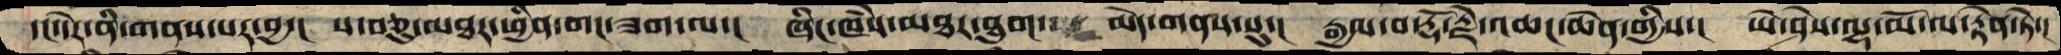དང་དེར་ནི་གནས་པར་བྱ་།  ས་བཅུ་མཐར་ཕྱིན་གང་ཟག་ལ་།  ཞིང་ཁཾས་མཐར་ཐུག་  མེད་གནས་སུ་།  རྒྱལ་བ་རྡོ་རྗེ་འཆང་ཆེན་གྱིས་།  ཡེ་ཤེས་ལྷ་མོ་ལ་རྟེན་ཏེ་།
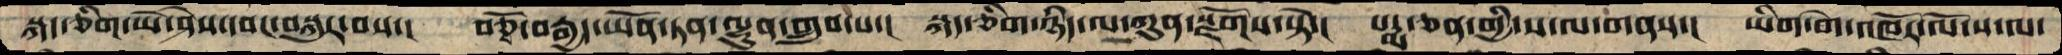སྐད་ཅིག་ཡེ་ཤེས་དབང་བསྐུར་བས་།  བཅྭོ་བརྒྱད་ཡོན་ཏན་ལྷུན་གྲུབ་པ་།  སྐད་ཅིག་ཉིད་ལ་ཀུན་སྫོགས་སྟེ་།  པདྨ་ཅན་གྱི་ས་ལ་གནས་།  ཡིག་གེ་འཁོར་ལོ་ས་ལ་
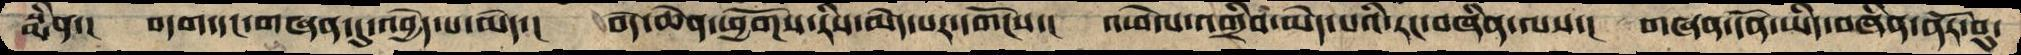སྨིན་།   བདག་དང་གཞན་དུ་འབྱེད་པ་མེད་།  བདེ་ཆེན་ཕྱོགས་རིས་མེད་པར་དགོངས་།  འཕེལ་འགྲིབ་མེད་པའི་རང་བཞིན་ལས་།  གཞན་དོན་ཡིད་བཞིན་ནོར་བུ་
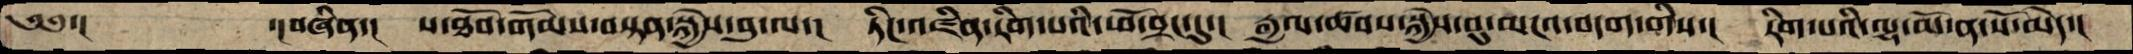༄༅་།        ་།བཞིན་།   ས་ཐོབ་གོམས་བསྟན་སྐྱེས་བུ་ལ་།  ཏིང་འཛིན་རིག་པའི་ཕོ་བྲང་དུ་།  རྒྱལ་ཚབས་སྐྱེས་བུ་མངའ་བདག་གིས་།  རིག་པའི་ལྷ་མོ་ན་སོ་མེད་།
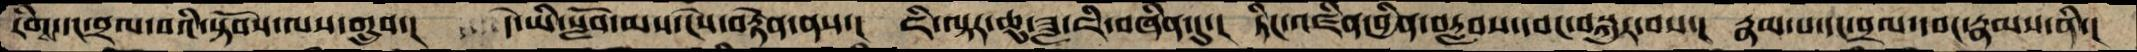རིགས་དང་བྲལ་བའི་སྟོབས་ལས་གྲུབ་། དེ་ཡི་སློབ་མས་ངེས་བརྟེན་ནས་། ཇི་ལྟར་ཆུ་ཟླ་ཇི་བཞིན་དུ་། ཏིང་འཛིན་བྱིན་བརླབས་དབང་བསྐུར་བས་། རྣམ་པ་དང་བྲལ་དབང་རྣམས་ནི་།
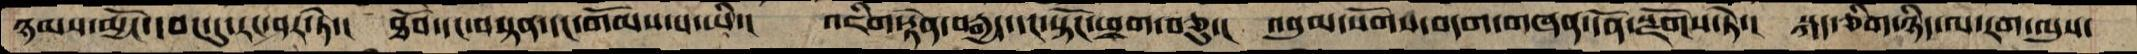ཉམས་མྱོང་དབང་དུ་རང་ཤར་ཏེ་།  ཐོབ་དང་བསྟན་དང་གོམས་པ་ཡི་།  འཇིག་རྟེན་བརྒྱད་དང་སྟོང་ཕྲག་བཅུ་།  འབུམ་སོགས་བདག་གཞན་དོན་སྫོགས་ཏེ་།  སྐད་ཅིག་ཉིད་ལ་རག་ལུས་
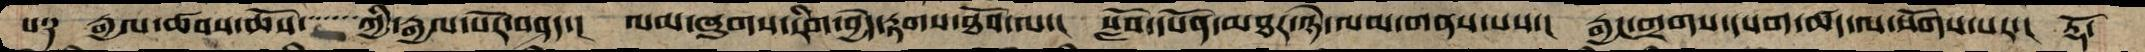པ༑  རྒྱལ་ཚབས་ཆོས་་་་་་ཀྱི་རྒྱལ་པོར་བཤད་།  ལམ་ཞུགས་རིག་བྱེད་རྟགས་ཐོབ་ལ་།  སློབ་དཔོན་མཐར་ཉེ་ལམ་གནས་པས་།  རྒྱང་གྲགས་དཔག་ཚད་ལ་སོགས་པར་།  རྡོ་
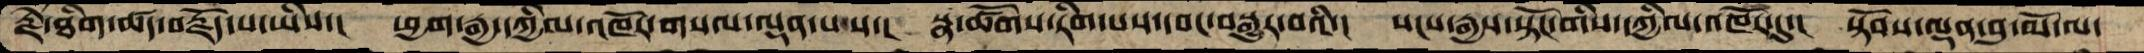རྗེ་ཐིག་ཚད་བརྗོད་པ་ཡིས་།  ཕྱག་རྒྱ་དཀྱིལ་འཁོར་གསལ་ལྡན་པས་།  སྣ་ཚོགས་རིག་པས་དབང་བསྒྱུར་བའི་།  སངས་རྒྱས་སྟོང་གིས་དཀྱིལ་འཁོར་དུ་།  སྟོབས་ལྡན་བུ་མོ་ལ་
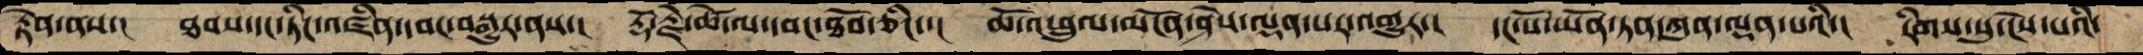རྟེན་ནས་།   ཐབས་དང་ཏིང་འཛིན་དབང་བསྒྱུར་ནས་།  རྡོ་རྗེ་ཚེ་ལ་དབང་ཐོབ་ཅིང་་།  ཆོ་འཕྲུལ་མངོན་ཤེས་ལྡན་པར་འགྱུར་།  དང་པོ་ཡོན་ཏན་ཀུན་ལྡན་པའི་།  རིགས་སུ་ངེས་པའི་
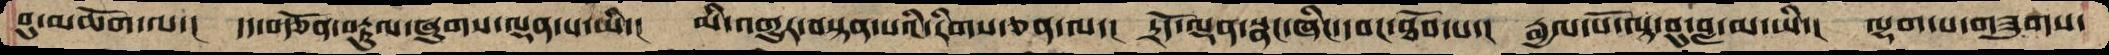བུ་མཆོག་ལ་།  དད་བརྩོན་བརྟུལ་ཞུགས་ལྡན་པ་ཡི་།  མི་འགྱུར་བསྟན་པའི་རིགས་ཅན་ལ་།  དྲོད་ལྡན་སྣང་ཞིང་དབང་ཐོབ་པ་།  རྒྱལ་པོ་ལྟ་བུ་བླ་མ་ཡི་།  ལྷག་པ་གཟུགས་
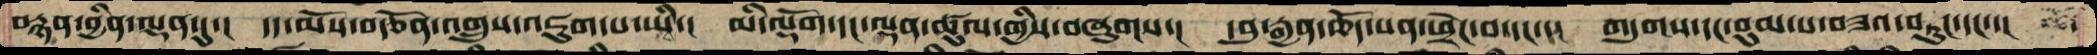བརྙན་བྱིན་ལྡན་དུ་།  དད་མོས་བརྩོན་འགྲུས་འཇུག་པ་ཡི་།  མི་ལྡོག་དང་ལྡན་ཚུལ་གྱིས་བཞུགས་།  དབུ་རྒྱན་ཆོད་པན་ཕྲེང་བ་དང་་།  གདུགས་དང་བུམ་པ་བཟའ་བཏུང་དང་་།
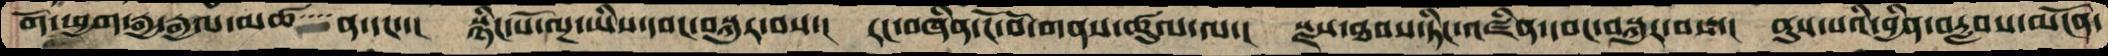གོ་ཕྱག་རྒྱ་རྒྱལ་མཚ་་་་ནདང་་།  སྙིང་པོ་ལྔ་ཡིས་དབང་བསྐུར་བས་།  རང་བཞིན་ངོ་བོ་གནས་ཚུལ་ལ་།  སྫས་ཐབས་ཏིང་འཛིན་དབང་བསྐུར་བས་།  ནུས་པའི་བྱིན་བརླབས་མངོན་
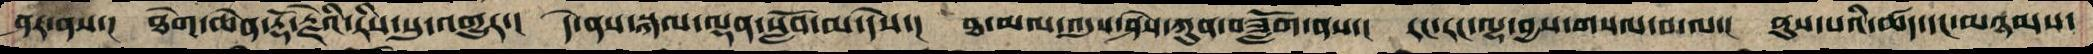ཤར་ནས་།  ཐེག་ཆེན་རྡོ་རྗེའི་རིས་སུ་འགྱུར་།  དེ་ནས་སྐལ་ལྡན་སློབ་མ་དེས་།  ཐ་མལ་འདུས་ཤེས་ཀུན་བཟློག་ནས་།  རང་རང་ལྷ་བྱས་གསལ་བ་ལ་།  ནུས་པའི་ཚད་དང་མཉམས་
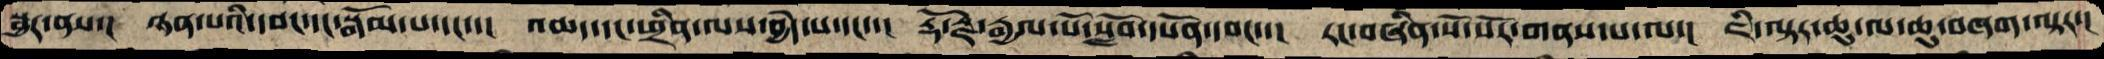སྦྱར་ནས་།  ཉན་པའི་དབང་དང་སྒོམ་པ་དང་་།  འཆད་དང་ཕྲིན་ལས་བྱེད་པ་དང་་།   རྡོ་རྗེ་རྒྱལ་པོ་སློབ་དཔོན་དབང་་།  རང་བཞིན་སོ་སོར་གནས་པ་ལ་།  ཇི་ལྟར་ཆུ་ལ་ཆུ་བཞག་ལྟར་།
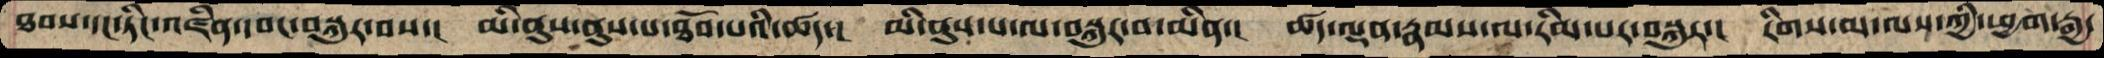ཐབས་དང་ཏིང་འཛིན་དབང་བསྐུར་བས་།  མི་ནུས་ནུས་པ་ཐོབ་པའི་ཚད་།  མི་ནུས་པ་ལ་བསྐུར་བ་མིན་།  ཚད་ལྡན་རྣམས་ལ་རིམ་པར་བསྐུར་།  རིགས་མ་ལས་ཀྱི་ཕྱག་རྒྱ་
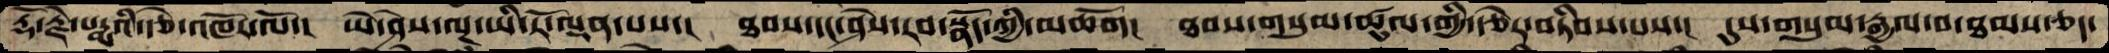རྡོ་རྗེ་པདྨའི་རྩེ་འཁོར་ལོ་།  ཡེ་ཤེས་ལྔ་ཡི་རོ་ལྡན་པས་།  ཐབས་དང་ཤེས་རབ་སྣོད་ཀྱི་མཆོག།  ཐབས་གསུམ་ཚུལ་གྱི་རྩེར་བཏིབས་པས་།  དུས་གསུམ་རྒྱལ་བ་ཐམས་ཅད་
